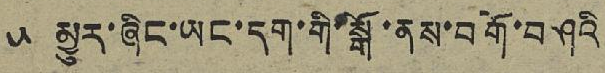༥ མྱུར་ཞིང་ཡང་དག་གི་སྒོ་ནས་བགོ་བཤའི
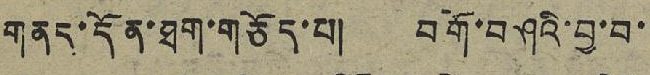གནད་དོན་ཐག་གཅོད་པ། བགོ་བཤའི་བྱ་བ་
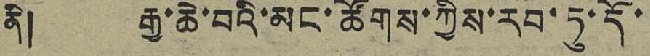ནི། རྒྱ་ཆེ་བའི་མང་ཚོགས་ཀྱིས་རབ་ཏུ་དོ་
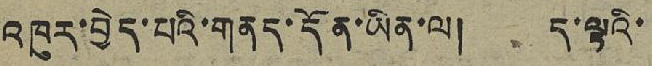འཁུར་བྱེད་པའི་གནད་དོན་ཡིན་ལ། ད་ལྟའི་
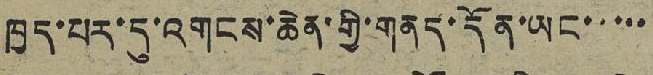ཁྱད་པར་དུ་འགངས་ཆེན་གྱི་གནད་དོན་ཡང་་་་་
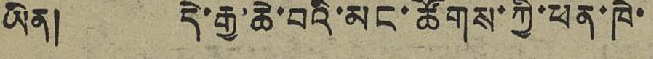ཡིན། དེ་རྒྱ་ཆེ་བའི་མང་ཚོགས་ཀྱི་ཕན་ཁེ་
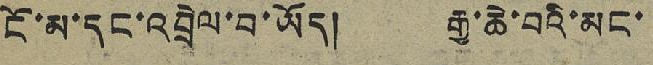ངོ་མ་དང་འབྲེལ་བ་ཡོད། རྒྱ་ཆེ་བའི་མང་
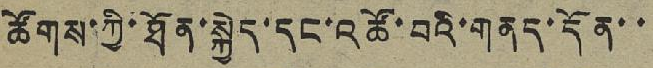ཚོགས་ཀྱི་ཐོན་སྐྱེད་དང་འཚོ་བའི་གནད་དོན་་
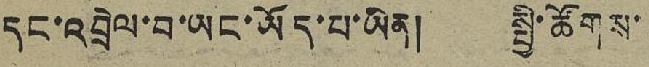དང་འབྲེལ་བ་ཡང་ཡོད་པ་ཡིན། སྤྱི་ཚོགས་
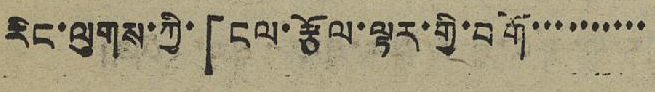རིང་ལུགས་ཀྱི་「ངལ་རྩོལ་ལྟར་གྱི་བགོ་་་་་་་་་་
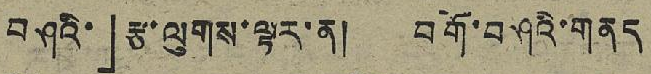བཤའི་」རྩ་ལུགས་ལྟར་ན། བགོ་བཤའི་གནད
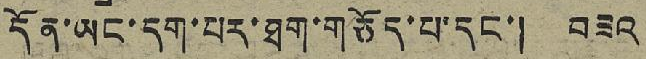དོན་ཡང་དག་པར་ཐག་གཅོད་པ་དང་། བཟའ
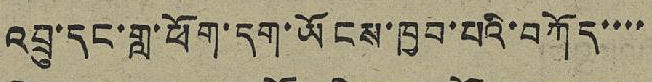འབྲུ་དང་གླ་ཕོག་དག་ཡོངས་ཁྱབ་པའི་བཀོད་་་་
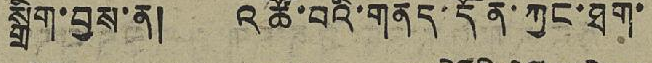སྒྲིག་བྱས་ན། འཚོ་བའི་གནད་དོན་ཀྱང་ཐག་
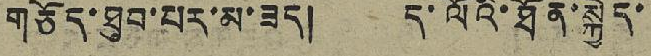གཅོད་ཐུབ་པར་མ་ཟད། ད་ལོའི་ཐོན་སྐྱེད་
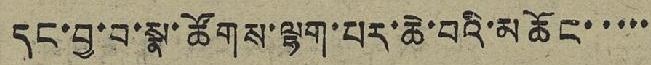དང་བྱ་བ་སྣ་ཚོགས་ལྷག་པར་ཆེ་བའི་མཆོང་་་་་
